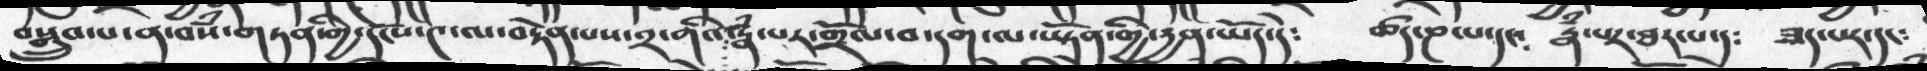བསྒྲུབ་པ་ན་བསཾ་གཏན་གྱི་དངོས་༤་ལ་བརྟེན་པས་༢་ཀའི་རྣཾ་པར་གྲོལ་བ་དག་ལ་ཡྟོན་གྱི་དྱན་ཡོད་དེ༴   ཚད་ཎ་པ་དང༴    རྣཾ་པར་ཐར་པ་ད༴ ཟད་པར་དང༴
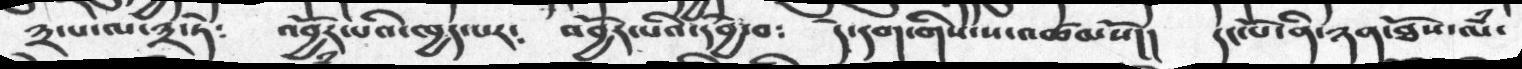༣་པ་ལ་༣་ཏེ༴   འབྱོར་པའི་ཁྱད་པ༴     འབྱོར་པའི་དབྱེ་བ༴    དེ་དག་གིས་ས་འཚམས་སོ།།  དང་པོ་ནི་ཉན་ཐོས་ལཾ་
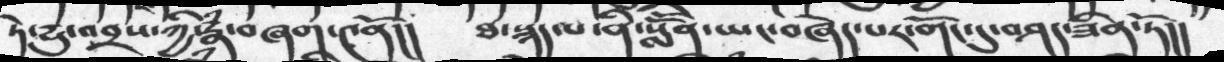ཏེ་དྱུ་འབྲས་ཀྱི་རྣཾ་བཞག་༤ནོ།།  ཐ་སྙད་ལ་ནི་སློོན་ཡང་བཞེད་པར་གོང་དུ་བཤད་ཟིན་ཏོ།།
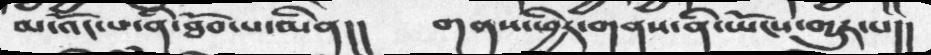མ་འོང་མ་ནི་ཐོབ་པ་མིན།།       གནས་ཕྱིར་གནས་ནི་ཡོངས་གྱུར་པ།།
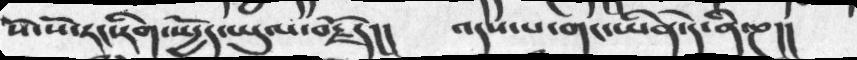སོ་སོ་རང་རིག་སྤྱོད་ཡུལ་བརྗོད།།      འདས་པ་གང་ཡིན་དེ་ནི་ཎ།།
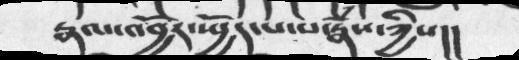རྣལ་འབྱོར་སྤྱོད་པ་པ་རྣཾས་ཀྱིས།།
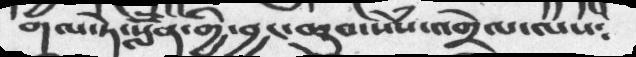གལ་ཏེ་སློོན་གྱི་བྱང་ཆུབ་སེཾས་འགྲེལ་ལས༴
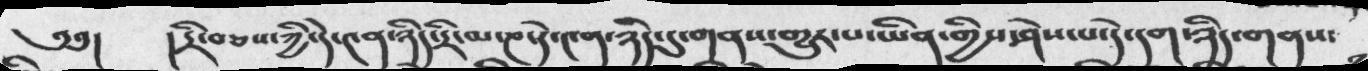༄༅།   །དྲི་བཅས་ཀྱི་དེ་༤ན་ཉིད་དྲི་མ་ཎ་དེ་༤ན་ཉིད་དུ་གནས་གྱུར་པ་ཡིན་གྱིས་ཤེས་པ་དེ་དག་ཉིད་གནས༴
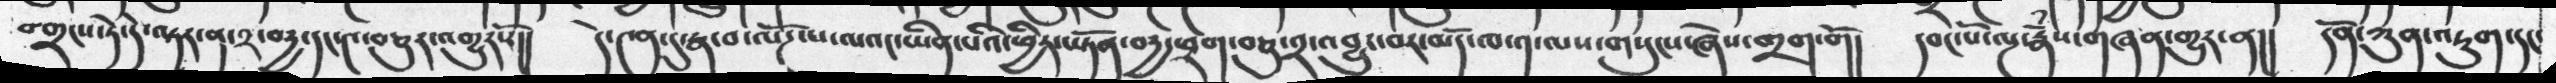བགྲངས་ཏེ་དེ་ལྟར་ན་༢་བདྱ་དང་༤་བཅུར་འགྱུར་རོ།།   དེ་༤ན་དུ་རྣ་བ་ལོཌ་པ་ལའང་ཡིན་པའི་ཕྱིར་ཡྟོན་བདྱ་ཕྲག་བཅུ་༢་འབྱུར་བར་མདོ་ཁ་༡་ལས་གསུངས་ཞེས་གྲག་གོ།།  དབང་པོ་ལྔ་རྣཾས་གཞན་གྱུར་ན།།  དོན་ཀུན་འཇུག་དང་
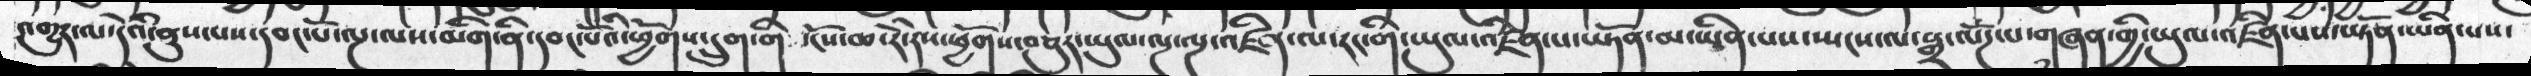འགྱུར་ལ་དེའི་ནུས་པས་དབང་པོ་ལྔ་ལས་མིག་ནི་དབང་པོའི་ཕྱོགས་དྲུག་གི་ངོས་ཆ་རེ་རེས་ཕྱོགས་བཅུར་ཡུལ་ལྔ་འཛིན་ལ་རང་གི་ཡུལ་འཛིན་པ་ཡྟོན་མ་ཡིན་པས་སྤངས་ལ་སྒྲ་ལོཌ་པ་གཞན་གྱི་ཡུལ་འཛིན་པས་ཡྟོན་ཡིན་པས་
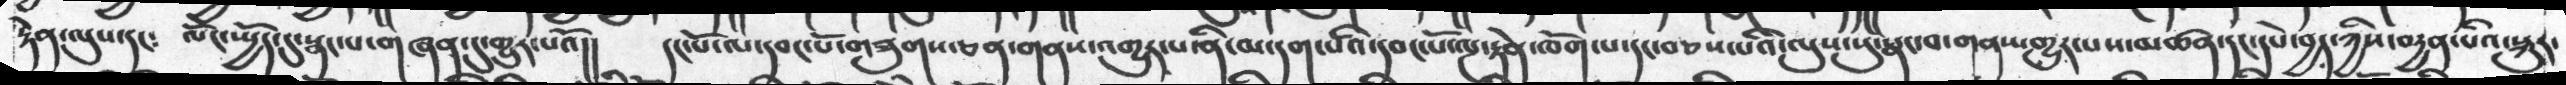རྟེན་ལུས་དང༴   ལོང་སྤྱོད་དུ་སྣང་པ་གཞན་དུ་གྱུར་པའོ།།   དང་པོ་ལ་དབང་པོ་གཟུགས་ཅན་གནས་འགྱུར་པ་ནི་མ་དག་པའི་དབང་པོ་ལྔ་རྟེན་ལོག་པ་དང་བཅས་པའི་ལུས་སུ་སྣང་བ་གནས་གྱུར་པས་མཚན་དང་དཔེ་བྱད་ཀྱིས་བདྱན་པའི་སྐུར་
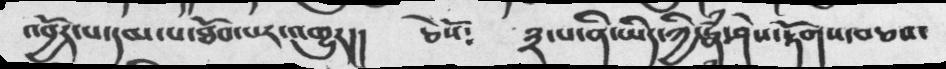འབྱོར་པ་དམ་པ་ཐོབ་པར་འགྱུར།།    ཅེསོ༴    ༣་པ་ནི་ཡིད་ཀྱི་རྣཾ་ཤེས་རྟོགས་བཅས་
